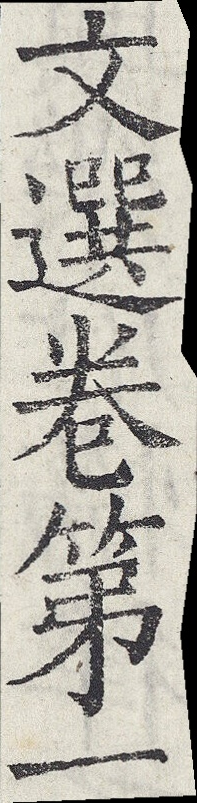文選卷第一
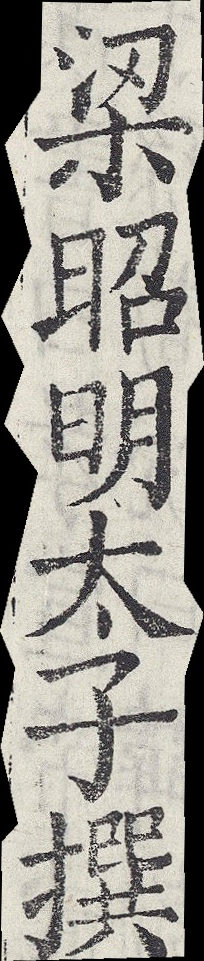梁昭明太子撰
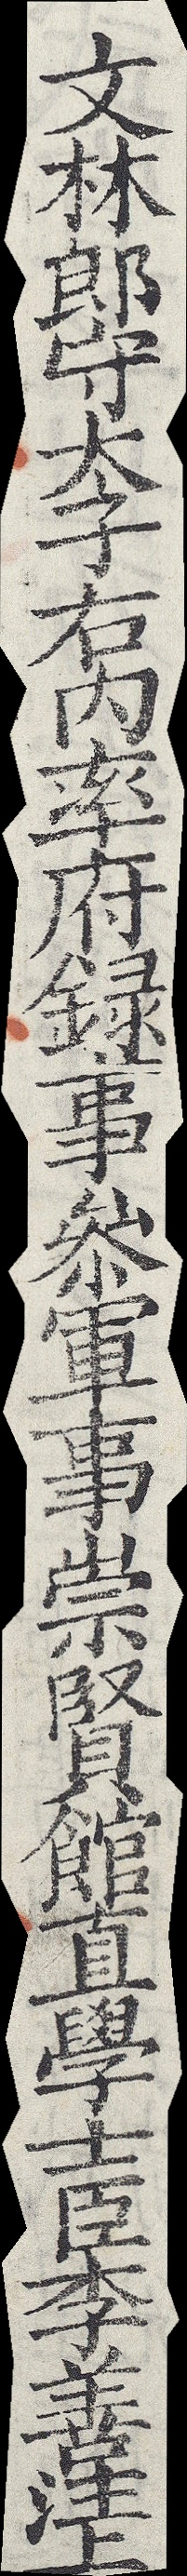文林郎守李右內率府錄事參軍事崇賢館直學士臣李善注上
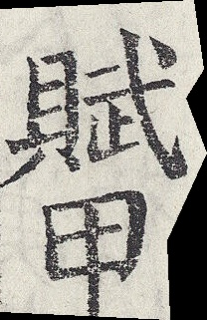賦甲
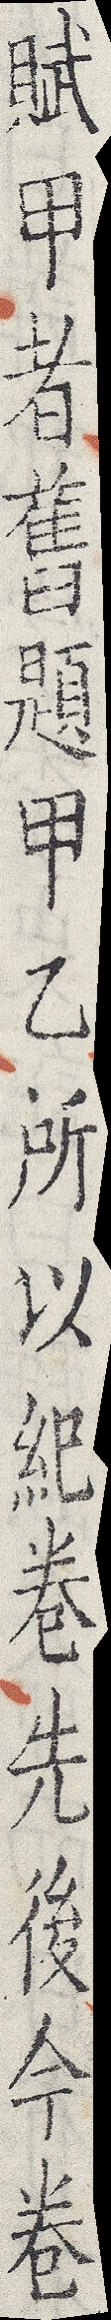賦甲者舊題甲乙所以紀卷先後今卷
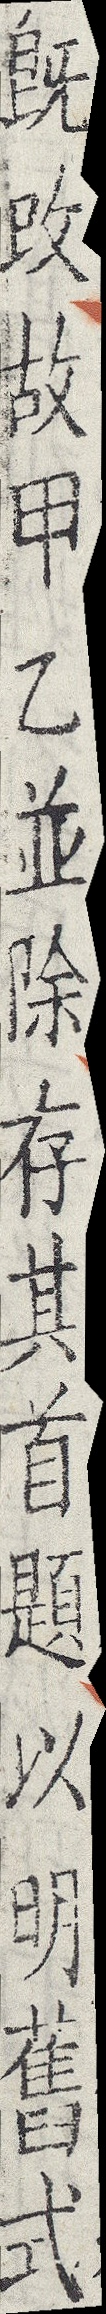既改故甲乙並除存其首題以明舊式
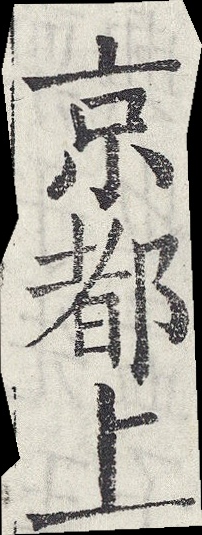京都上
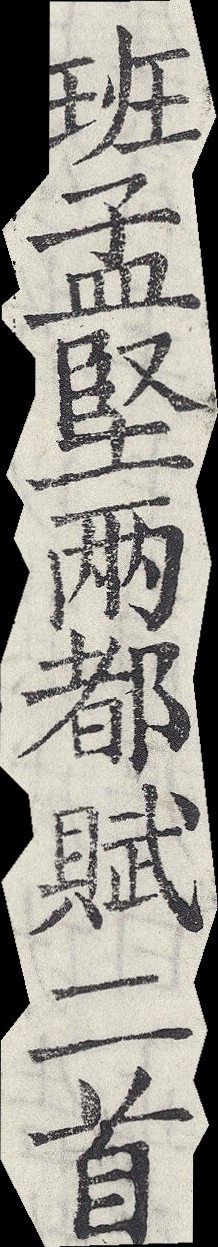班孟堅兩都賦二首
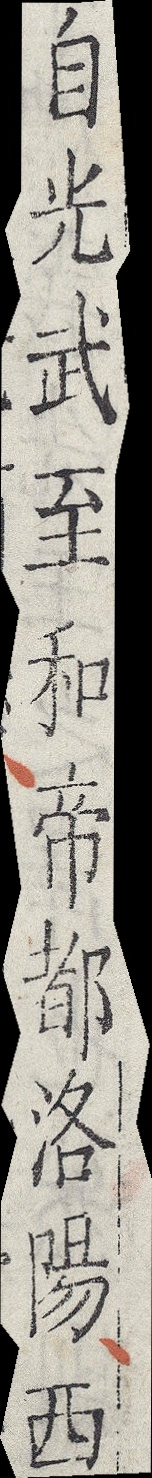自光武至和帝都洛陽西
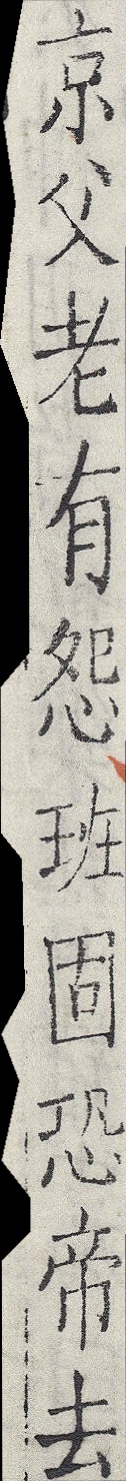京父老有怨班固恐帝去
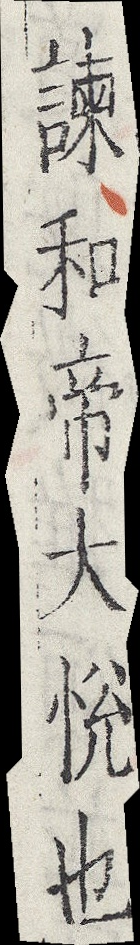諫和帝大悅也
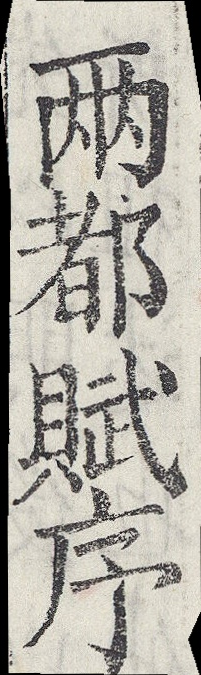兩都賦序
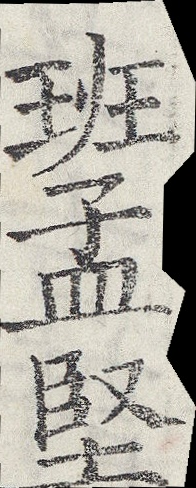班孟堅
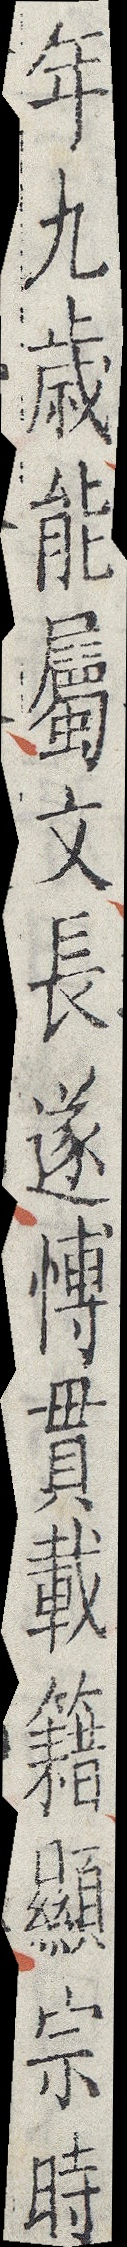年九歲能屬文長遂博貫載籍顯宗時
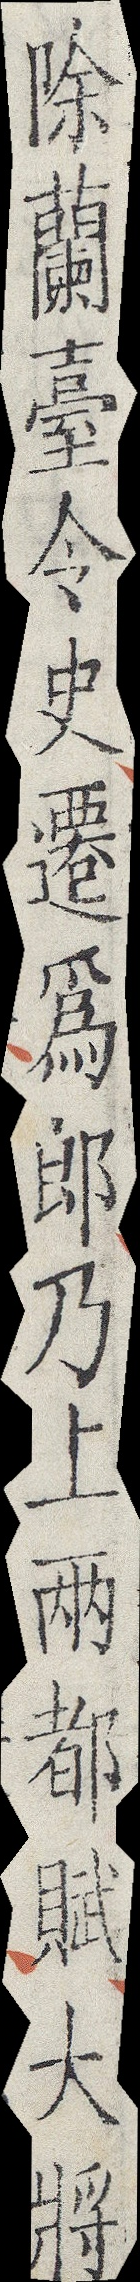除蘭臺令史遷為郎乃上兩都賦大將
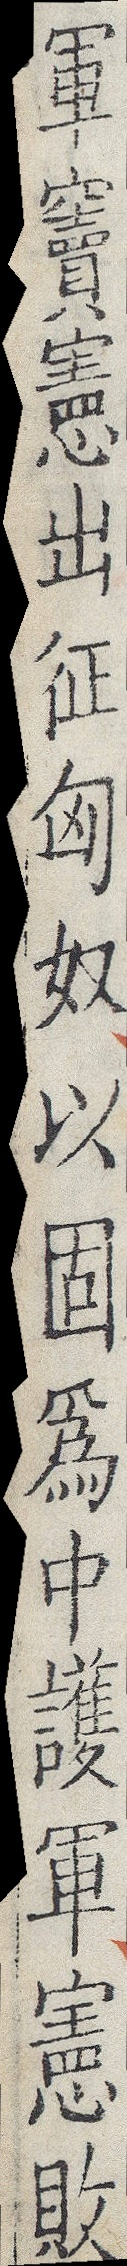軍竇憲出征匈奴以固為中護軍憲敗
